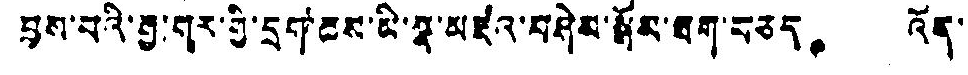བྱས་པའི་རྒྱ་གར་གྱི་དྲག་ཆས་མི་སྣ་མཛའ་བཤེས་སྒོམ་ཐག་བཅད。 འོན་
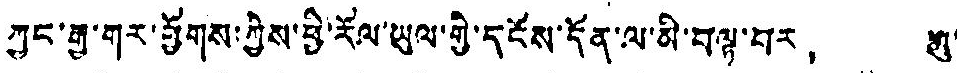ཀྱང་རྒྱ་གར་ཕྱོགས་ཀྱིས་ཕྱི་རོལ་ཡུལ་གྱི་དངོས་དོན་ལ་མི་བལྟ་བར， ཨུ་
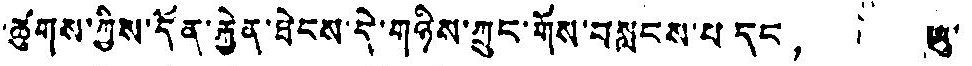ཚུགས་ཀྱིས་དོན་རྐྱེན་ཐེངས་དེ་གཉིས་ཀྲུང་གོས་བསླངས་པ དང， ཨུ་
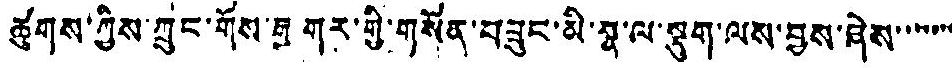ཚུགས་ཀྱིས་ཀྲུང་གོས་རྒྱ གར་གྱི་གསོན་བཟུང་མི་སྣ་ལ་སྡུག་ལས་བྱས་ཤེས་་་་་་་
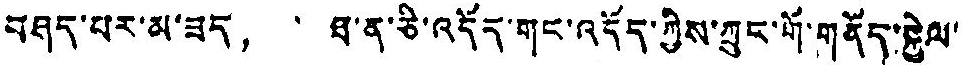བཤད་པར་མ་ཟད， ཐ་ན་ཅི་འདོད་གང་འདོད་ཀྱིས་ཀྲུང་གོ་གནོད་སྐྱེལ་
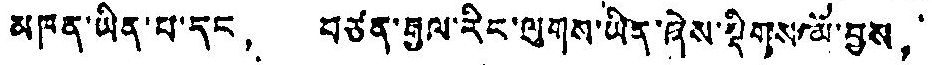མཁན་ཡིན་པ་དང， བཙན་རྒྱལ་རིང་ལུགས་ཡིན་ཞེས་སྡིགས་ལོ་བྱས，
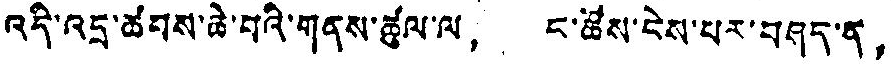འདི་འདྲ་ཚབས་ཆེ་བའི་གནས་ཚུལ་ལ， ང་ཚོས་ངེས་པར་བཤད་ན，
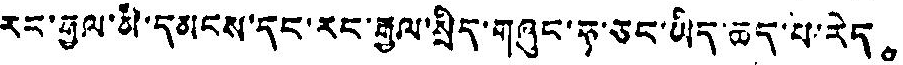རང་རྒྱལ་མི་དམངས་དང་རང་རྒྱལ་སྲིད་གཞུང་ཧ་ཅང་ཡིད་ཆད་པ་རེད。
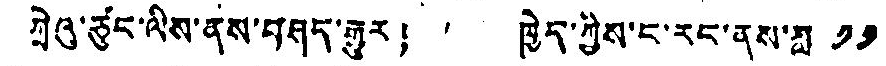ཀྲེའུ་ཙུང་ལིས་ནས་བཤད་རྒྱུར། ཁྱེད་ཀྱིས་ང་རང་ནས་ཟླ ༡༡
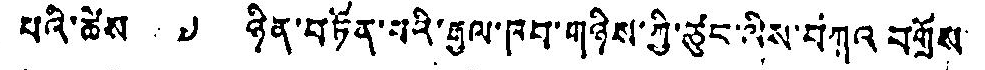པའི་ཚེས ༧ ཉིན་བཏོན་པའི་རྒྱལ་ཁབ་གཉིས་ཀྱི་ཙུང་ལིས་བཀའ བགྲོས
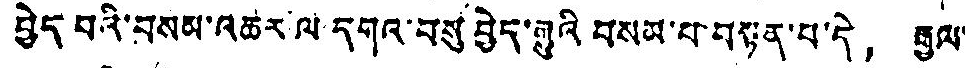བྱེད པའི་བསམ་འཚར་ལ དགའ་བསུ བྱེད་རྒྱུའི བསམ་པ་བསྟན་པ་དེ， རྒྱལ་
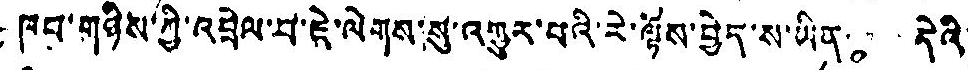ཁབ་གཉིས་ཀྱི་འབྲེལ་བ་ཇེ་ལེགས་སུ་འགྱུར་བའི་རེ་ལྟོས་བྱེད་ས་ཡིན。 དེའི་
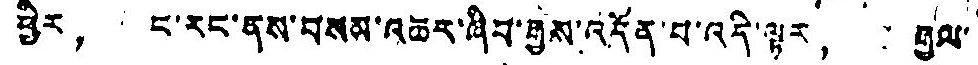ཕྱིར， ང་རང་ནས་བསམ་འཆར་ཞིབ་རྒྱས་འདོན་པ་འདི་ལྟར， རྒྱལ་
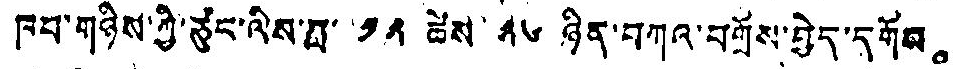ཁབ་གཉིས་ཀྱི་ཙུང་ལིས་ཟླ་ ༡༢ ཚེས་ ༢༦ ཉིན་བཀའ་བགྲོས་བྱེད་དགོས。
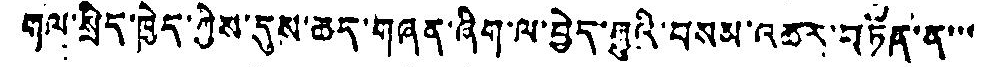གལ་སྲིད་ཁྱེད་ཀྱིས་དུས་ཆད་གཞན་ཞིག་ལ་བྱེད་ཞྱུའི་བསམ་འཆར་བཏོན་ན་་་
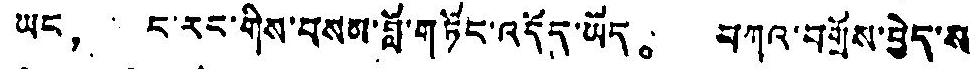ཡང， ང་རང་གིས་བསམ་བློ་གཏོང་འདོད་ཡོད。 བཀའ་བགྲོས་བྱེད་ས།
